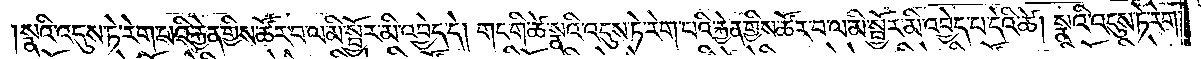སྣའི་འདུས་ཏེ་རེག་པའི་རྐྱེན་གྱིས་ཚོར་བ་ལ་མི་སྦྱོར་མི་འབྱེད་དེ། གང་གི་ཚེ་སྣའི་འདུས་ཏེ་རེག་པའི་རྐྱེན་གྱིས་ཚོར་བ་ལ་མི་སྦྱོར་མི་འབྱེད་པ་དེའི་ཚེ། སྣའི་འདུས་ཏེ་རེག་
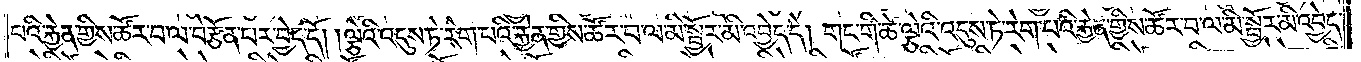པའི་རྐྱེན་གྱིས་ཚོར་བ་ལ་བརྩོན་པར་བྱེད་དོ། །ལྕེའི་འདུས་ཏེ་རེག་པའི་རྐྱེན་གྱིས་ཚོར་བ་ལ་མི་སྦྱོར་མི་འབྱེད་དེ། གང་གི་ཚེ་ལྕེའི་འདུས་ཏེ་རེག་པའི་རྐྱེན་གྱིས་ཚོར་བ་ལ་མི་སྦྱོར་མི་འབྱེད་
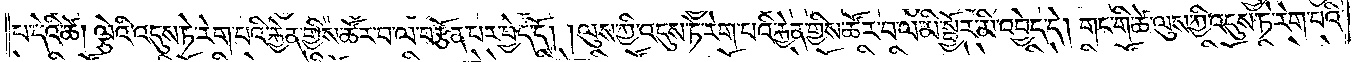པ་དེའི་ཚེ། ལྕེའི་འདུས་ཏེ་རེག་པའི་རྐྱེན་གྱིས་ཚོར་བ་ལ་བརྩོན་པར་བྱེད་དོ། །ལུས་ཀྱི་འདུས་ཏེ་རེག་པའི་རྐྱེན་གྱིས་ཚོར་བ་ལ་མི་སྦྱོར་མི་འབྱེད་དེ། གང་གི་ཚེ་ལུས་ཀྱི་འདུས་ཏེ་རེག་པའི་
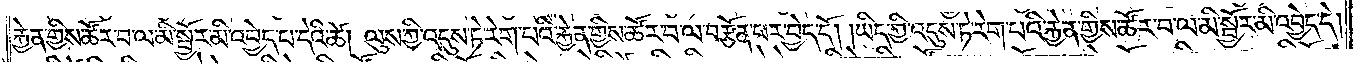རྐྱེན་གྱིས་ཚོར་བ་ལ་མི་སྦྱོར་མི་འབྱེད་པ་དེའི་ཚེ། ལུས་ཀྱི་འདུས་ཏེ་རེག་པའི་རྐྱེན་གྱིས་ཚོར་བ་ལ་བརྩོན་པར་བྱེད་དོ། །ཡིད་ཀྱི་འདུས་ཏེ་རེག་པའི་རྐྱེན་གྱིས་ཚོར་བ་ལ་མི་སྦྱོར་མི་འབྱེད་དེ།
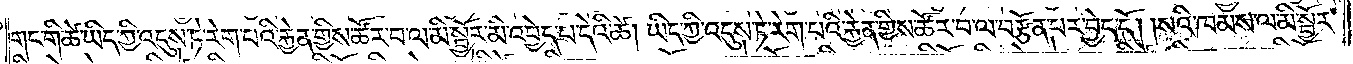གང་གི་ཚེ་ཡིད་ཀྱི་འདུས་ཏེ་རེག་པའི་རྐྱེན་གྱིས་ཚོར་བ་ལ་མི་སྦྱོར་མི་འབྱེད་པ་དེའི་ཚེ། ཡིད་ཀྱི་འདུས་ཏེ་རེག་པའི་རྐྱེན་གྱིས་ཚོར་བ་ལ་བརྩོན་པར་བྱེད་དོ། །སའི་ཁམས་ལ་མི་སྦྱོར་
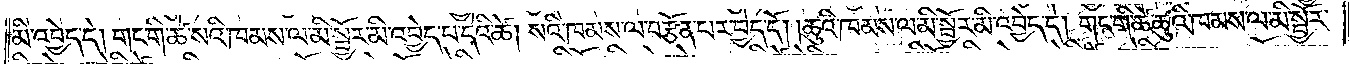མི་འབྱེད་དེ། གང་གི་ཚེ་སའི་ཁམས་ལ་མི་སྦྱོར་མི་འབྱེད་པ་དེའི་ཚེ། སའི་ཁམས་ལ་བརྩོན་པར་བྱེད་དོ། །ཆུའི་ཁམས་ལ་མི་སྦྱོར་མི་འབྱེད་དེ། གང་གི་ཚེ་ཆུའི་ཁམས་ལ་མི་སྦྱོར་
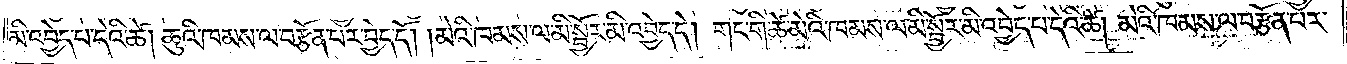མི་འབྱེད་པ་དེའི་ཚེ། ཆུའི་ཁམས་ལ་བརྩོན་པར་བྱེད་དོ། །མེའི་ཁམས་ལ་མི་སྦྱོར་མི་འབྱེད་དེ། གང་གི་ཚེ་མེའི་ཁམས་ལ་མི་སྦྱོར་མི་འབྱེད་པ་དེའི་ཚེ། མེའི་ཁམས་ལ་བརྩོན་པར་
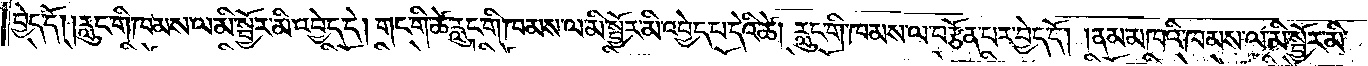བྱེད་དོ། །རླུང་གི་ཁམས་ལ་མི་སྦྱོར་མི་འབྱེད་དེ། གང་གི་ཚེ་རླུང་གི་ཁམས་ལ་མི་སྦྱོར་མི་འབྱེད་པ་དེའི་ཚེ། རླུང་གི་ཁམས་ལ་བརྩོན་པར་བྱེད་དོ། །ནམ་མཁའི་ཁམས་ལ་མི་སྦྱོར་མི་
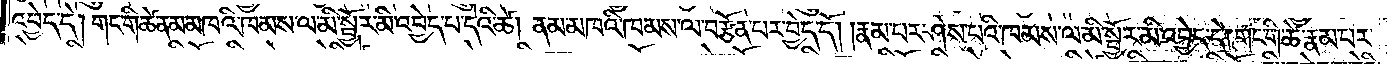འབྱེད་དེ། གང་གི་ཚེ་ནམ་མཁའི་ཁམས་ལ་མི་སྦྱོར་མི་འབྱེད་པ་དེའི་ཚེ། ནམ་མཁའི་ཁམས་ལ་བརྩོན་པར་བྱེད་དོ། །རྣམ་པར་ཤེས་པའི་ཁམས་ལ་མི་སྦྱོར་མི་འབྱེད་དེ། གང་གི་ཚེ་རྣམ་པར་
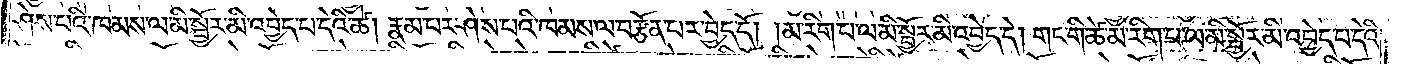ཤེས་པའི་ཁམས་ལ་མི་སྦྱོར་མི་འབྱེད་པ་དེའི་ཚེ། རྣམ་པར་ཤེས་པའི་ཁམས་ལ་བརྩོན་པར་བྱེད་དོ། །མ་རིག་པ་ལ་མི་སྦྱོར་མི་འབྱེད་དེ། གང་གི་ཚེ་མ་རིག་པ་ལ་མ་སྦྱོར་མི་འབྱེད་པ་དེའི་
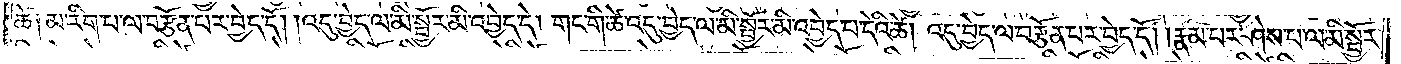ཚེ༑ མ་རིག་པ་ལ་བརྩོན་པར་བྱེད་དོ། །འདུ་བྱེད་ལ་མི་སྦྱོར་མི་འབྱེད་དེ། གང་གི་ཚེ་འདུ་བྱེད་ལ་མི་སྦྱོར་མི་འབྱེད་པ་དེའི་ཚེ། འདུ་བྱེད་ལ་བརྩོན་པར་བྱེད་དོ། །རྣམ་པར་ཤེས་པ་ལ་མི་སྦྱོར་
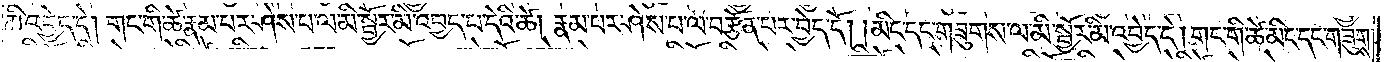མི་འབྱེད་དེ། གང་གི་ཚེ་རྣམ་པར་ཤེས་པ་ལ་མི་སྦྱོར་མི་འབྱེད་པ་དེའི་ཚེ། རྣམ་པར་ཤེས་པ་ལ་བརྩོན་པར་བྱེད་དོ། །མིང་དང་གཟུགས་ལ་མི་སྦྱོར་མི་འབྱེད་དེ། གང་གི་ཚེ་མིང་དང་གཟུགས་
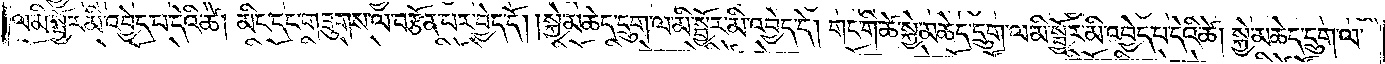ལ་མི་སྦྱོར་མི་འབྱེད་པ་དེའི་ཚེ། མིང་དང་གཟུགས་ལ་བརྩོན་པར་བྱེད་དོ། །སྐྱེ་མཆེད་དྲུག་ལ་མི་སྦྱོར་མི་འབྱེད་དེ། གང་གི་ཚེ་སྐྱེ་མཆེད་དྲུག་ལ་མི་སྦྱོར་མི་འབྱེད་པ་དེའི་ཚེ། སྐྱེ་མཆེད་དྲུག་ལ་
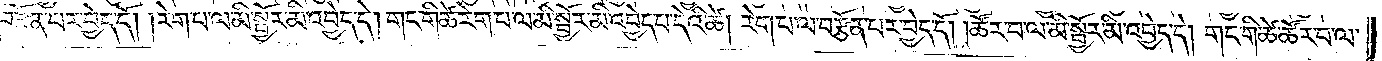བརྩོན་པར་བྱེད་དོ། །རེག་པ་ལ་མི་སྦྱོར་མི་འབྱེད་དེ། གང་གི་ཚེ་རེག་པ་ལ་མི་སྦྱོར་མི་འབྱེད་པ་དེའི་ཚེ། རེག་པ་ལ་བརྩོན་པར་བྱེད་དོ། །ཚོར་བ་ལ་མི་སྦྱོར་མི་འབྱེད་དེ། གང་གི་ཚེ་ཚོར་བ་ལ་
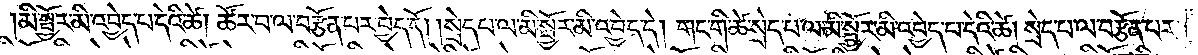མི་སྦྱོར་མི་འབྱེད་པ་དེའི་ཚེ། ཚོར་བ་ལ་བརྩོན་པར་བྱེད་དོ། །སྲེད་པ་ལ་མི་སྦྱོར་མི་འབྱེད་དེ། གང་གི་ཚེ་སྲེད་པ་ལ་མི་སྦྱོར་མི་འབྱེད་པ་དེའི་ཚེ། སྲེད་པ་ལ་བརྩོན་པར་
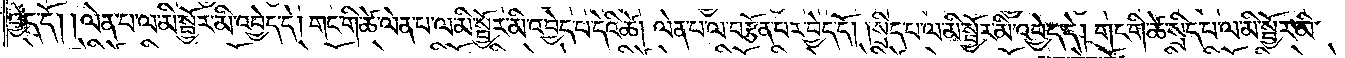བྱེད་དོ། །ལེན་པ་ལ་མི་སྦྱོར་མི་འབྱེད་དེ། གང་གི་ཚེ་ལེན་པ་ལ་མི་སྦྱོར་མི་འབྱེད་པ་དེའི་ཚེ། ལེན་པ་ལ་བརྩོན་པར་བྱེད་དོ། །སྲིད་པ་ལ་མི་སྦྱོར་མི་འབྱེད་དེ། གང་གི་ཚེ་སྲིད་པ་ལ་མི་སྦྱོར་མི་
